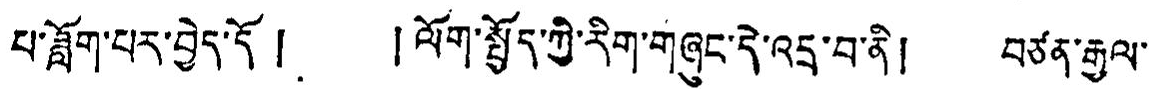པ་ཟློག་པར་བྱེད་དོ། །ལོག་སྤྱོད་ཀྱི་རིག་གཞུང་དེ་འདྲ་བ་ནི། བཙན་རྒྱལ་
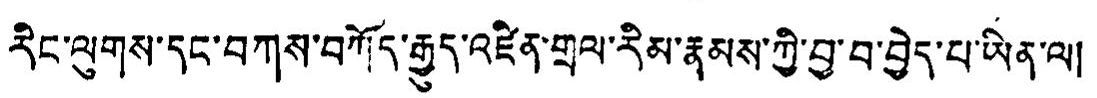རིང་ལུགས་དང་བཀས་བཀོད་རྒྱུད་འཛིན་གྲལ་རིམ་རྣམས་ཀྱི་བྱ་བ་བྱེད་པ་ཡིན་ལ།
